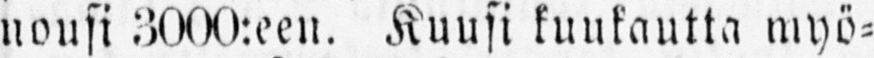nousi 3000:een. Kuusi kuukautta myö-
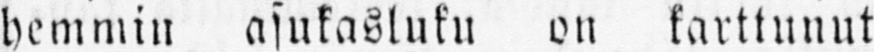hemmin asukasluku on karttunut
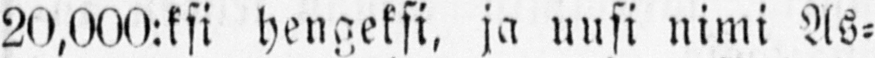20,000:ksi hengeksi, ja uusi nimi As-
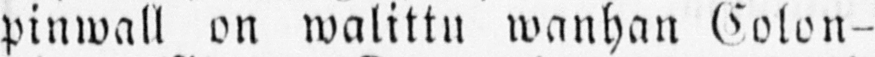pinwall on walittu wanhan Colon-
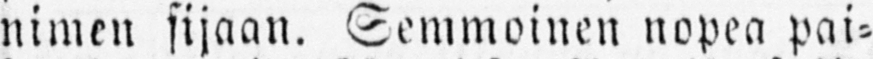nimen sijaan. Semmoinen nopea pai-
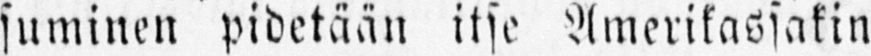suminen pidetään itse Amerikassakin
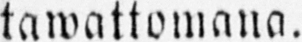tawattomana.
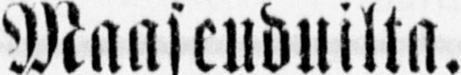Maaseuduilta.
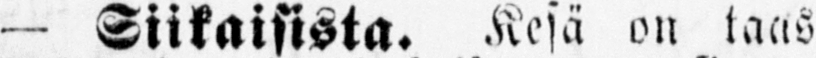— Siikaisista. Kesä on taas
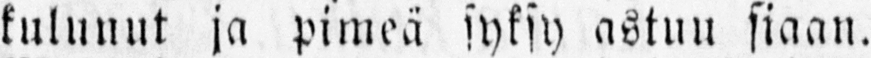kulunut ja pimeä syksy astuu siaan.
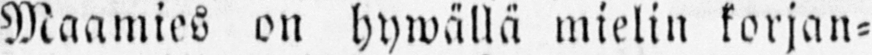Maamies on hywällä mielin korjan-
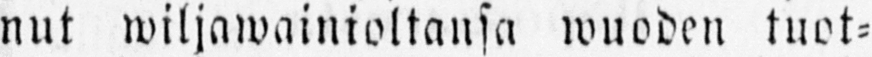nut wiljawainioltansa wuoden tuot-
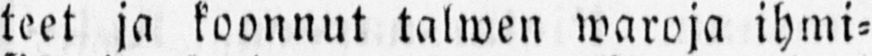teet ja koonnut talwen waroja ihmi-
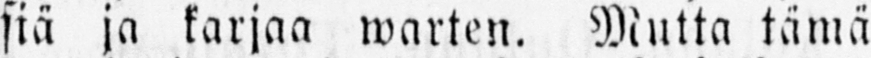siä ja karjaa warten. Mutta tämä
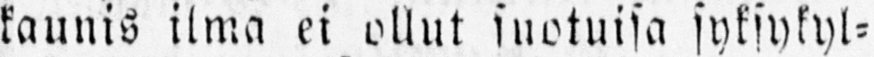kaunis ilma ei ollut suotuisa syksykyl-
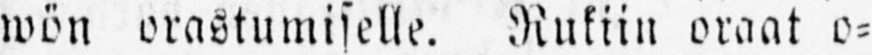wön orastumiselle. Rukiin oraat o-
